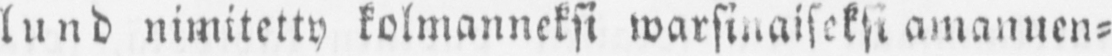lund nimitetty kolmanneksi warsinaiseksi amanuen-
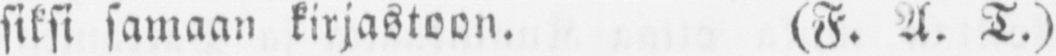siksi samaan kirjastoon. (F. A. T.)
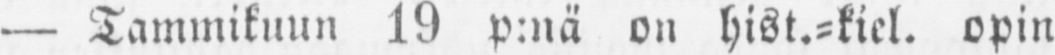— Tammikuun 19 p:nä on hist.-kiel. opin
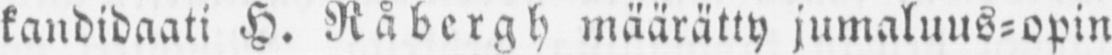kandidaati H. Råbergh määrätty jumaluus-opin
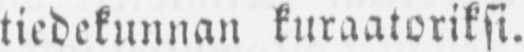tiedekunnan kuraatoriksi.
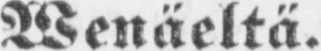Wenäeltä.
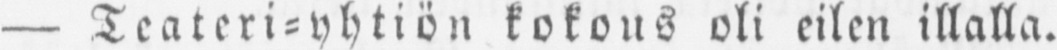— Teateri-yhtiön kokous oli eilen illalla.
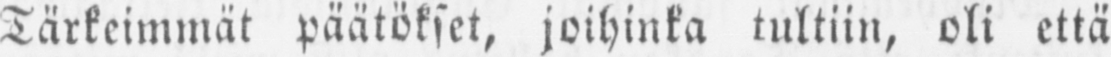Tärkeimmät päätökset, joihinka tultiin, oli että
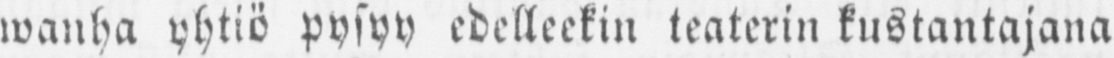wanha yhtiö pysyy edelleekin teaterin kustantajana
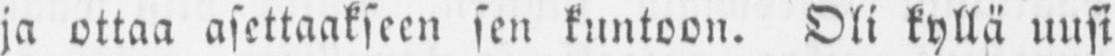ja ottaa asettaakseen sen kuntoon. Oli kyllä uusi
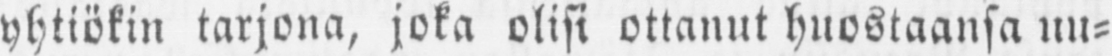yhtiökin tarjona, joka olisi ottanut huostaansa uu-
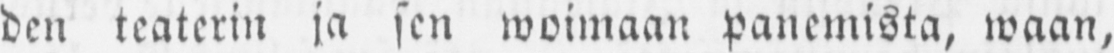den teaterin ja sen woimaan panemista, waan,
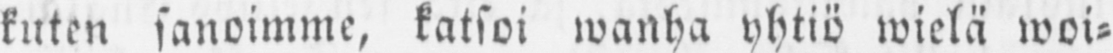kuten sanoimme, katsoi wanha yhtiö wielä woi-
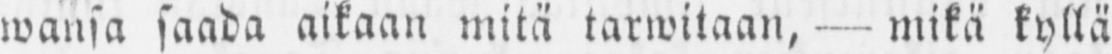wansa saada aikaan mitä tarwitaan, — mikä kyllä
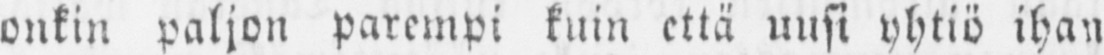onkin paljon parempi kuin että uusi yhtiö ihan
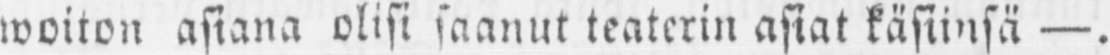woiton asiana olisi saanut teaterin asiat käsiinsä —.
